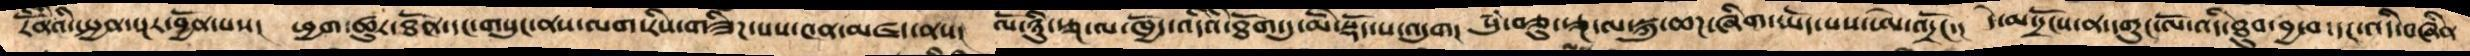རིནོེའི་སྤྱན་སྔར་བྱོན་པས།   ཕྱག་ཚུར་ཐོན་དང་གསུང་ནས་ལག་རིས་གཟིཌ་པ་༤ན་མཛད་ནས།  ལོ་ཉིུ་རྩྔ་ལ་ཁྱོད་འདིའི་ཐོག་ཏུ་མི་སྡོད་པ་འདུག།   སུཾ་བཅུ་རྩྔ་ལ་སྐུ་ཆཌ་ཞིག་ཡོད་པས་ཨེ་འདྲོང་།  དེ་མ་དྲོངས་ན་དགུང་ལོ་འདི་ཐུབ་བྱ་བ་དང་འདི་བཞིན་
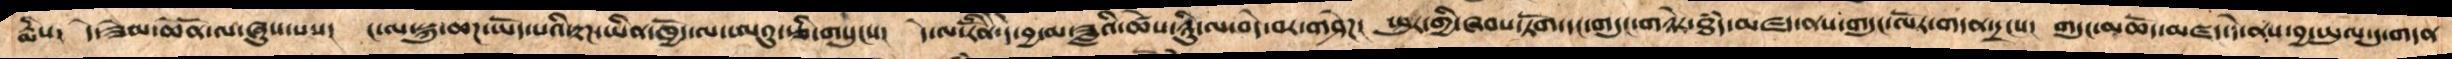རྨིས།  དེ་ཟེམ་ཆེནོ་ལ་ཞུས་པས།  ང་ལ་སྐུ་ཆཌ་ཡོད་པའི་རྟཌ་ཡིན་ཁྱོད་ལ་ཨའུ་ཅི་གསུངས།  དེ་ལ་རིོནེ་དེ་བྱ་མ་ཟླའི་ཚེས་ཉིུ་ལ་བདེ་བར་གཤེཌ། ཕུར་གྱི་ཞབས་ཏོག་དང་གདུང་གཉེར་ཐཾད་མཛད་ནས་གདུང་ལོར་གདན་དྲངས།   གདུང་མཆོད་མཛད་དེ་ནས་བྱ་ཡུལ་དུ་གདན
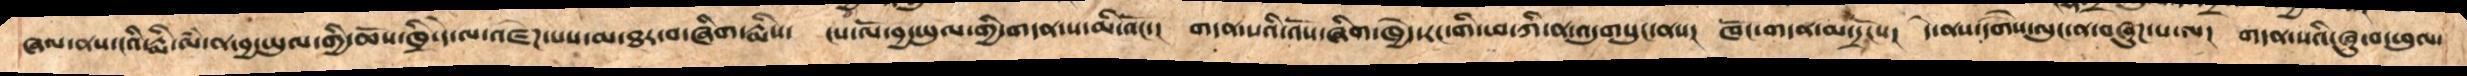ཞལ་ནས་ངའི་རྨི་ལཾ་ན་བྱ་ཡུལ་གྱི་ཆོས་ཁྲི་དེ་ལ་འཛེཌ་པས་མ་ཐར་བ་ཞིག་རྨིས་   ངས་ལོ་བྱ་ཡུལ་གྱི་གདན་ས་མི་འོང་།   གདན་སའི་འོས་ཞིག་ཁྱེད་རང་གི་ཕ་ཀི་ན་འདུགསུང་ནས།  ཁོང་གདན་མ་དྲོངས།  དེ་ནས་དགཻས་ལུང་ན་བཞུཌ་པ་ལ།   གདན་སའི་ཞུ་བ་ཕུལ་
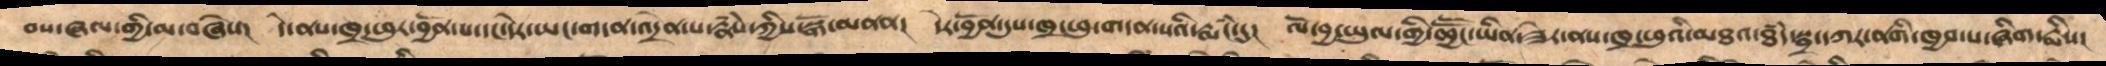བས་ཞལ་གྱི་མ་བཞེས།  དེ་ནས་ཁྲ་ཕུར་བྱོན་པ་དང་དེར་ཡང་གདན་འདྲེན་པ་རྣཾས་ཀྱིས་སྒོ་མནན།   དེར་བྱོན་དུས་ཁྲ་ཕུ་གདན་སའི་རྨཾང་དུ།   ལོ་བྱ་ཡུལ་གྱི་ཆྱཽང་ཡིན་ཟེར་ནས་ཁྲ་ཕུའི་མཐའ་ཐཾད་སྦྲ་དཀར་ནགི་ཁྱབ་པ་ཞིག་རྨིས།
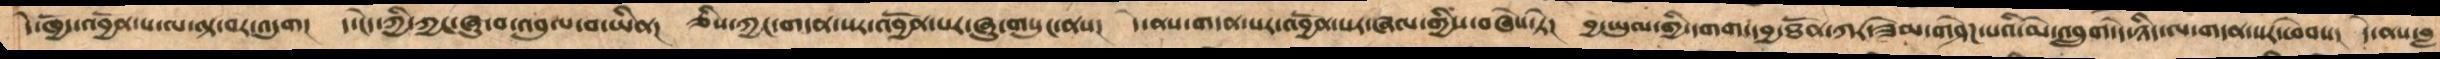དེ་ཁྱོད་འབྱོན་པ་ལ་ལྟ་བར་འདུག།  ད་ངེད་ཀྱི་ཀྱང་ཞུ་བ་འབུལ་བ་ཡིན།   ཅིས་ཀྱང་གདན་སར་འབྱོན་པར་ཞུ་གསུང་ནས།  དེ་ནས་གདན་སར་འབྱོན་པར་ཞལ་གྱིས་བཞེས་ཏེ།  བྱ་ཡུལ་གྱི་དགག་དབྱ་ཐོན་ཀར་ཟེམ་གཤེཌ་པའི་མེ་འབྲུག་དེ་ཉིད་ལ་གདན་སར་ཕེབས།  དེ་ནས་བླ
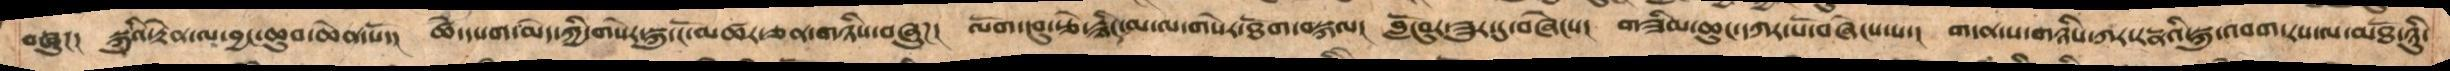བཞུཌ།  སྐུའི་རྟེན་ལ་བྱང་ཆུབ་ཆེན་པོ་།   ཚེ་དཔག་མེད་ཀྱི་གསེར་སྐུ་ངོ་མཚར་ཅན་གཉིས་བཞུཌ།   ལོག་དབུ་རྩེ་རྙིང་མ་ལ་གསེར་ཐོག་བསྐལ།  བློ་བུར་ཟུར་དུ་བཞེངས།   གཟིམ་ཆུང་དཀར་པོ་བཞེངས་པ་།  གདན་ས་གཉིས་ཀར་རདྣའི་སྐུ་འབག་རས་ལ་མཐོ་ཉིུ་
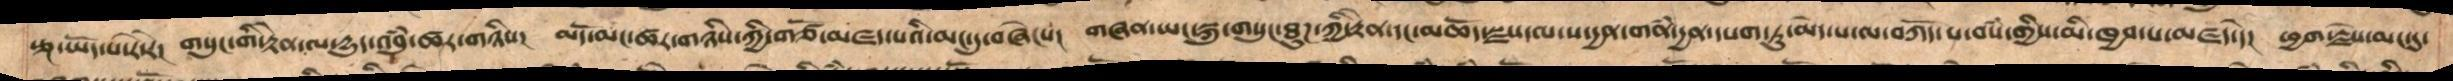རྩྔ་ཡོད་པ་རེ་རེ།   གསུང་གི་རྟེན་ལ་དྱུད་འབུཾ་ཚར་གཉིས།   མདོ་མང་ཚར་གཉིས་ཀྱི་གཙོ་མཛད་པའི་མང་དུ་བཞེངས།   གཞན་ཡང་སྐུ་གསུང་ཐུཌ་ཀྱི་རྟེན་དང་མཆོད་སྫས་ལ་ས་དྱན་གནཾ་དྱན་དཔག་ཏུ་མེད་པ་ལ་བཀོད་པ་བསཾ་གྱིས་མི་ཁྱབ་པ་མཛད་དེ།  ཕྱག་རྗེས་མང་དུ་
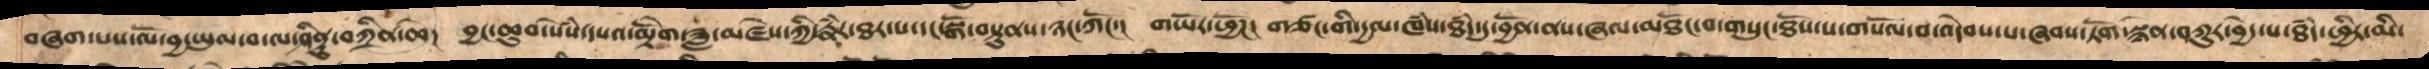བཞག་པས་ལོ་བྱ་ཡུལ་བ་ལ་ཤིནྟུ་བཀྲིན་ཆེ།   བྱང་ཆུབ་སེཾས་དཔའ་མྟེགོ་ཟླ་མཛེས་ཀྱི་རྣཾར་ཐར་པ་དང་སྒོ་བསྟུནས་ཉང་ཀོང་།  གཡོར་ཕྱོཌ།  གཙང་གི་དྱལ་ཁཾས་ཐཾད་དུ་བྱོན་ནས་ཞལ་མཐོང་བ་གསུང་ཐོས་པ་གསོལ་བ་འདེབས་པ་ཞབས་ཏོག་སྙེན་བཀུར་བྱེད་པ་ཐཾད་ཕྱིར་མི་
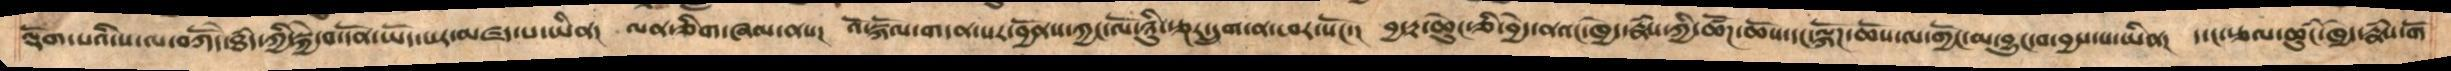ལྡོག་པའི་ས་ལ་བཀོདེ་ཐཾད་ཀྱི་སྐྱེ་བ་དོན་ཡོད་པར་མཛད་པ་ཡིན།  ལན་ཅིག་ཞལ་ནས།  འོ་སྐོལ་གདན་སར་བྱོནས་ཀྱང་ལོ་ཉིུ་རྩྔར་དྲུག་ན་ཕར་སོང་།  བྱ་རྟ་ཆེུང་ཅི་བྱེད་ནའང་ཁྱེད་རྣཾས་ཀྱི་ཚོཌ་ཆོས་དང་ལྐོཌ་ཆོས་ལ་གྱོང་མ་བྱུང་བ་བྱས་པ་ཡིན།  ད་ང་རྩལ་ཆུངཾ་ཁྱེད་རྣཾས་གོ
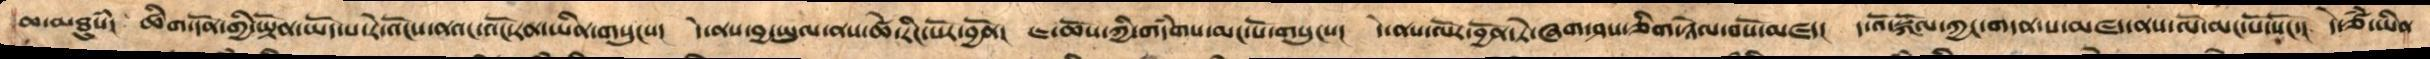ཆ་མཐུསཾ།  ཚིག་དོན་གྱི་ཡྟོན་ཡོད་པ་རེ་འོངས་ནའང་འོང་རན་ཡིན་གསུངས་།  དེ་ནས་བྱ་ཡུལ་ནས་ཚེ་རིང་པོར་བྱོན།  ཇ་ཆོས་ཀྱི་གདཾགས་མང་པོ་གསུངས།   དེ་ནས་ལོར་བྱོན་ཏེ་ཞག་ཤས་ཅིག་ཉེལ་བསོ་མཛད།  ད་འོ་སྐོལ་ཀྱང་གདན་ས་མཛད་ནས་ལོ་མང་པོ་སོང་།   དེ་ཙཾ་ཡིན
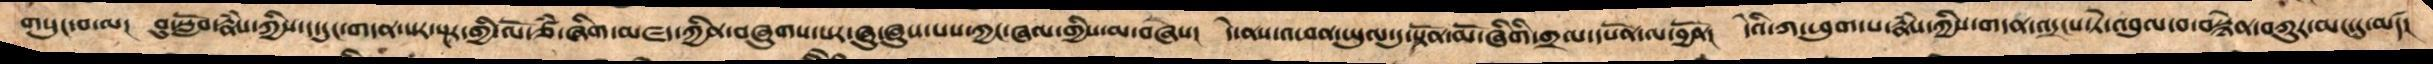གསུང་བ་ལ།   བུ་སློབ་རྣཾས་ཀྱིས་ད་དུང་གདན་སར་སྔར་གྱི་ལོ་ཙཾ་ཞིག་མཛད་ཀྱིན་བཞུགས་པར་ཞུ་ཞུས་པས་ཀྱང་ཞལ་གྱིས་མ་བཞེས།  དེ་ནས་འཕན་ཡུལ་དུ་སྟོན་མོ་ཞིགི་གྲལ་དཔོན་ལ་བྱོན།   དེའི་ཀ་ཕུག་པ་རྣཾས་ཀྱིས་གདན་འདྲངས་ཏེ་འབུལ་བ་བསྙེན་བཀུར་མང་དུ་མཛད།
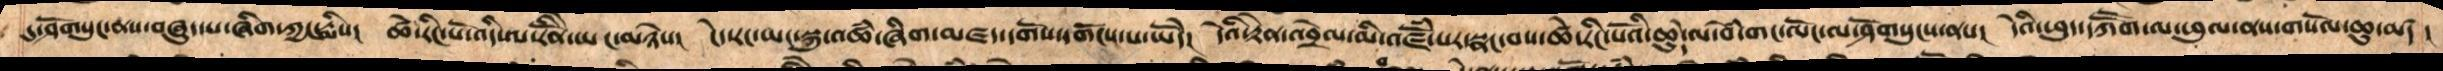དུ་ཤོགསུང་ནས་བཞུད་པ་ཞིག་ཀྱང་རྨིས།   ཚེ་རིང་པོ་འདི་ལ་རིནོེ་ཡང་མཉེས།  ངེད་རང་ཡང་སྐུ་འཚཾ་ཞིག་མཛད་དགོས་དགོངས་པ་ཡོདེ།   དེའི་རྟེན་འབྲེལ་མི་འཛོཾ་པར་སྣང་བས་ཚེ་རིང་པོའི་ཆེུད་ལ་བེཾ་གང་ལོང་ལ་ཤོགསུངས་ནས།   དེའི་ཕུད་དཀཽག་ལ་ཕུལ་ནས་གསོལ་ཆུ་མཛད།
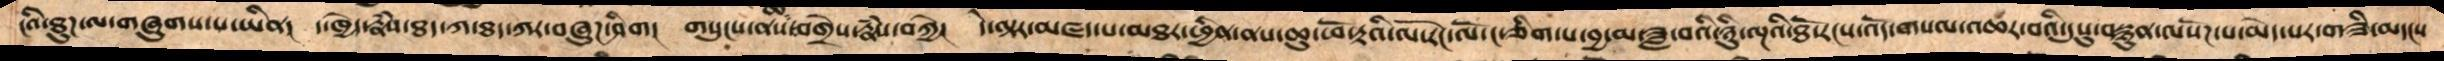ངའི་ཐུཌ་ལ་གཞུགས་པ་ཡིན།   ད་ཁྱེད་རྣཾས་ཐད་ཀ་ཐད་ཀར་བཞུཌ་ཤིག།  གསུངས་ནས་བགྲེས་རྣཾས་བཀྱེ།   དེ་ལྟར་མཛད་པ་མཐར་ཕྱིན་ནས་ཆུ་ཕོ་རྟའི་ལོ་རང་ལོ་ང་ཅིག་པ་བྱ་མ་ཟླ་བའི་ཉིུ་ལྔའི་ཐོ་རངས་འོད་གསལ་འཆར་བའི་དུསུ་བསྙུན་ལསོཌ་པ་མེད་པར་གཟི་མདངས
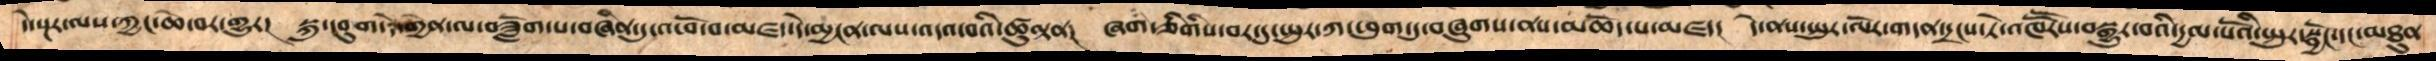དེ་སྔར་ལས་ཀྱང་ཆེ་བར་གྱུར།  སྐུ་དབུག་དེ་གྱོན་ལ་བཟློག་པ་བཞིན་དུ་འཕོ་བ་མཛད་དེ་མྱངན་ལས་འདའ་བའི་ཚུལྟན།   ཞག་ཅིགིས་བར་དུ་སྤུར་ཀ་ཕུག་དུ་བཞུགས་ནས་མཆོད་པ་མཛད།   དེ་ནས་སྤུར་ལོར་གདན་དྲངས་ཏེ་འཁཽརས་བསྒྱུར་བའི་དྱལ་པོའི་སྤུར་སྦྱོང་དང་མཐུན
